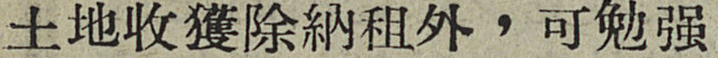土地收穫除納租外，可勉强
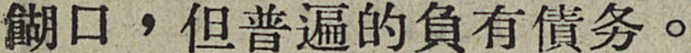餬口，但普遍的負有債务。
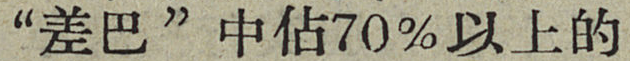“差巴”中佔70％以上的
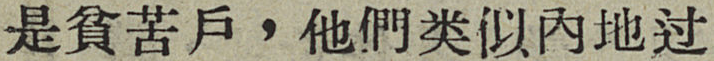是貧苦戶，他們类似内地过
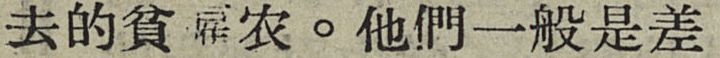去的貧僱农。他們一般是差
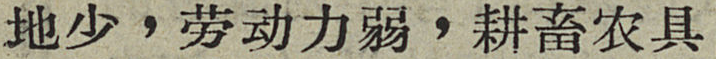地少，劳动力弱，耕畜农具
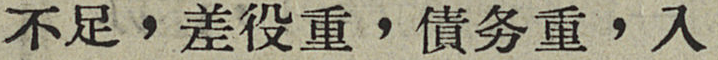不足，差役重，債务重，入
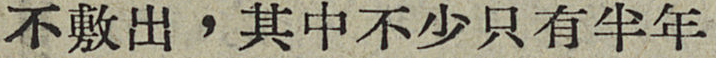不敷出，其中不少只有半年
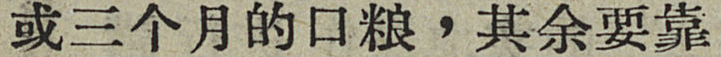或三个月的口粮，其余要靠
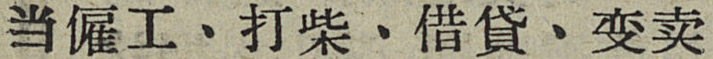当僱工、打柴、借貸、变卖
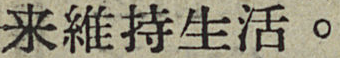来維持生活。
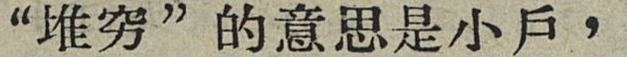“堆穷”的意思是小戶，
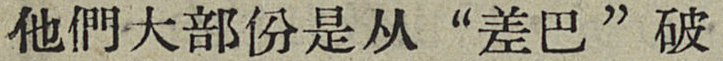他們大部份是从“差巴”破
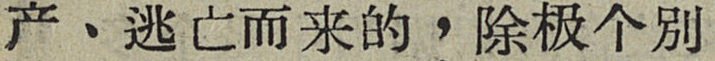产、逃亡而来的，除极个别
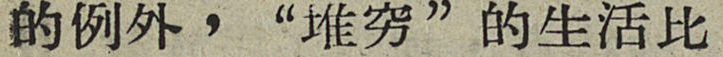的里外，“堆穷”的生活比
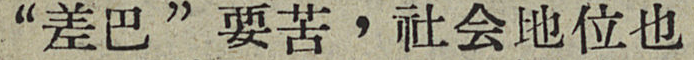“差巴”要苦，社会地位也
